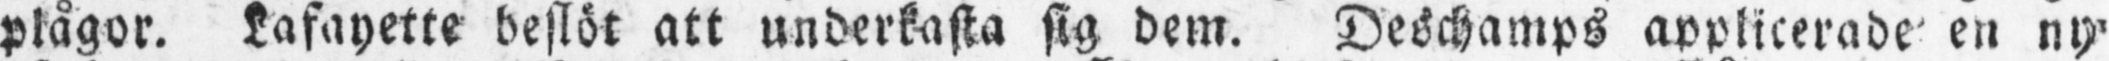plågor. Lafayette beslöt att underkasta sig dem. Deschamps applicerade en ny
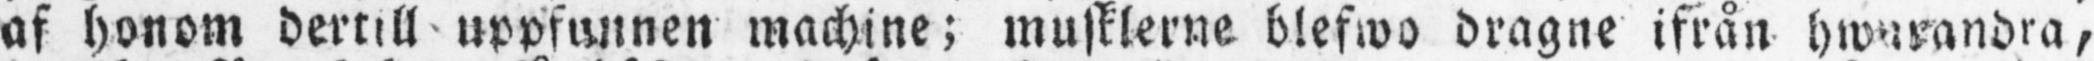af honom dertill uppfunnen machine; musklerne blefwo dragne ifrån hwarandra,
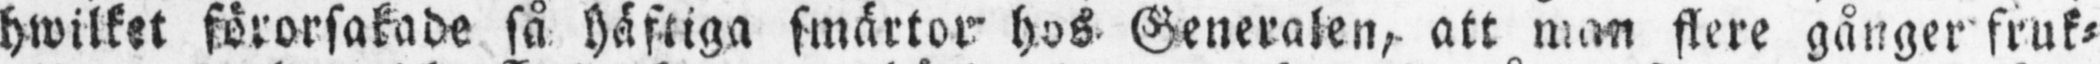hwilket förorsakade så häftiga smärtor hos Generalen, att man flere gånger fruk-
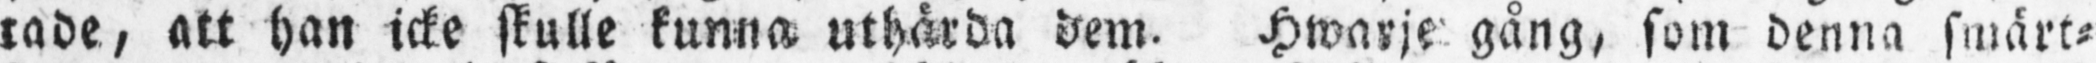tade, att han icke skulle kunna uthärda dem. Hwarje gång, som denna smärt-
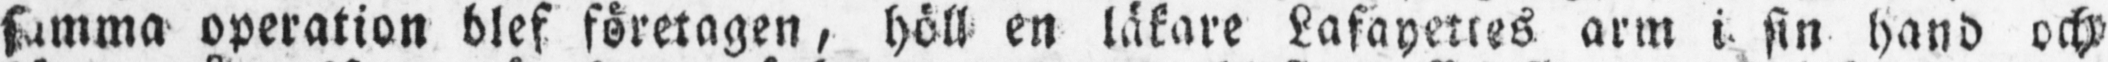samma operation blef företagen, höll en läkare Lafayettes arm i sin hand och
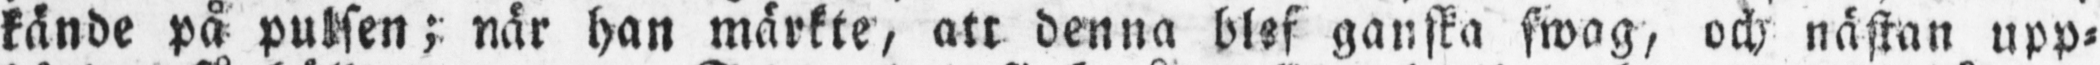kände på pulsen; när han märkte, att denna blef ganska swag, och nästan upp-
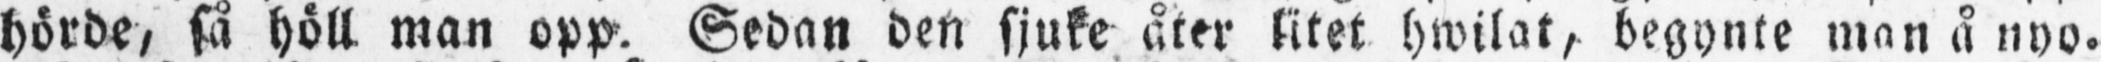hörde, så höll man opp. Sedan den sjuke åter litet hwilat, begynte man å nyo.
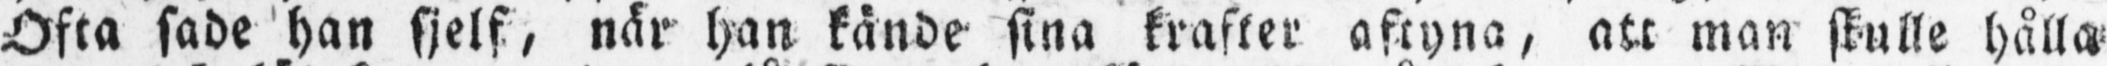Ofta sade han sjelf, när han kände sina krafter aftyna, att man skulle hålla
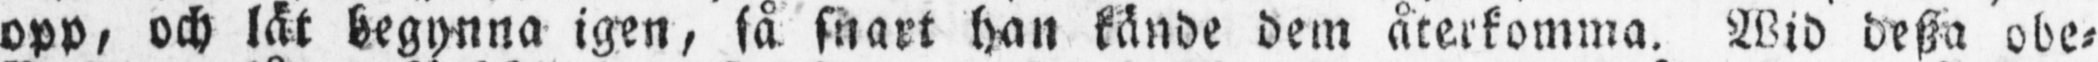opp, och lät begynna igen, så snart han kände dem återkomma. Wid desza obe-
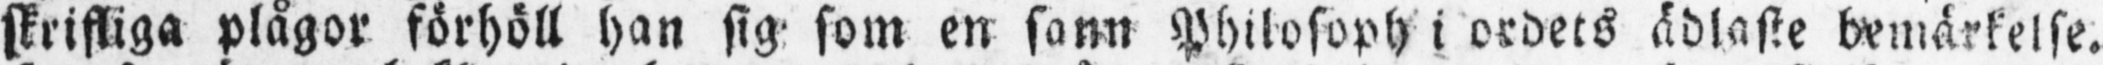skrifliga plågor förhöll han sig som en sann Philosoph i ordets ädlaste bemärkelse.
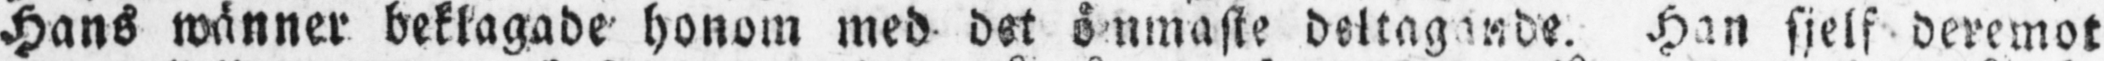Hans wänner beklagade honom med det ömmaste deltagande. Han sjelf deremot
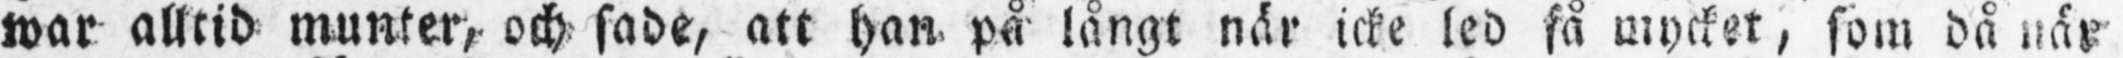war alltid munter, och sade, att han på långt när icke led så mycket, som då när
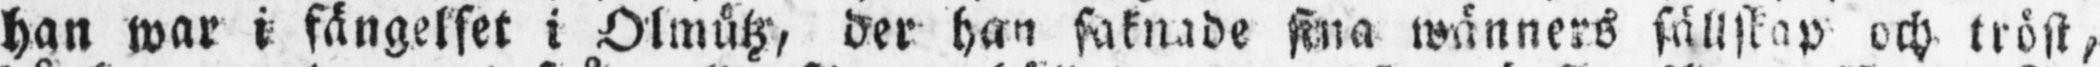han war i fängelset i Olmütz, der han saknade sina wänners sällskap och tröst,
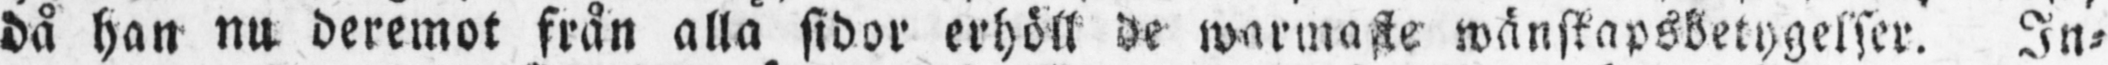då han nu deremot från alla sidor erhöll de warmaste wänskapsbetygelser. In-
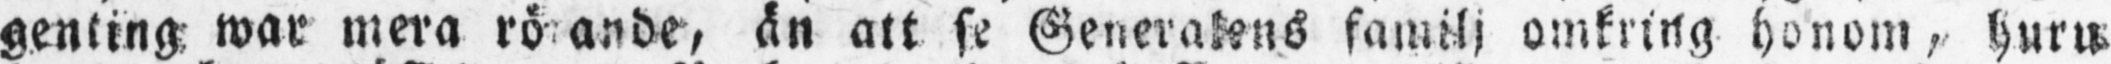genting war mera rö ande, än att se Generalens familj omkring honom, huru
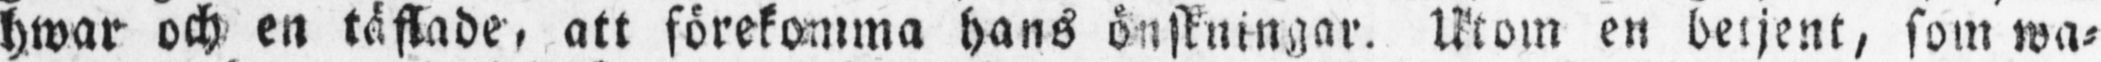hwar och en täflade, att förekomma hans önskningar. Utom en betjent, som wa-
